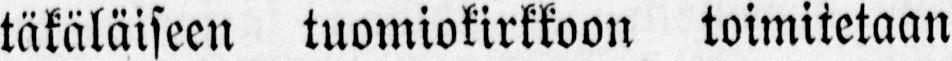täkäläiseen tuomiokirkkoon toimitetaan
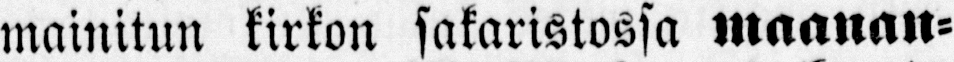mainitun kirkon sakaristossa maanan-
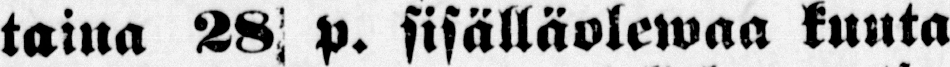taina 28 p. sisälläolewaa kuuta
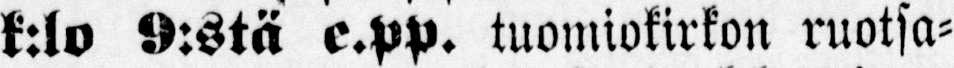k:lo 9:stä e.pp. tuomiokirkon ruotsa-
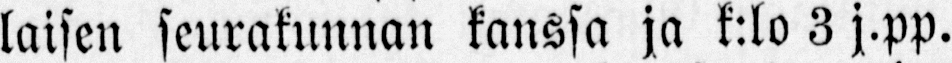laisen seurakunnan kanssa ja k:lo 3 j.pp.
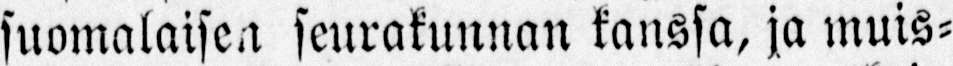suomalaisen seurakunnan kanssa, ja muis-
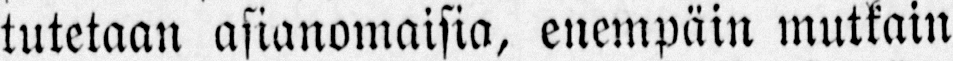tutetaan asianomaisia, enempäin mutkain
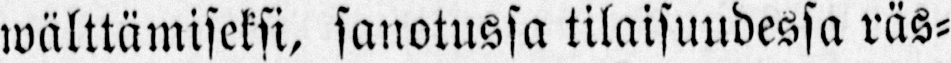wälttämiseksi, sanotussa tilaisuudessa räs-
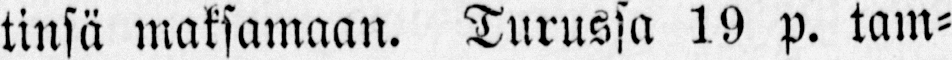tinsä maksamaan. Turussa 19 p. tam-
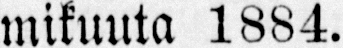mikuuta 1884.
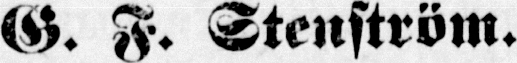G. F. Stenström.
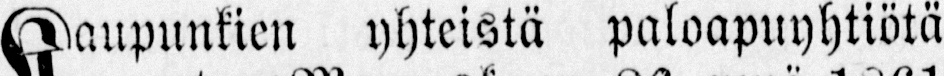Kaupunkien yhteistä paloapuyhtiötä
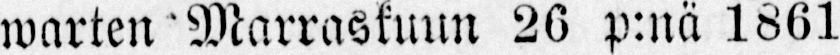warten Marraskuun 26 p:nä 1861
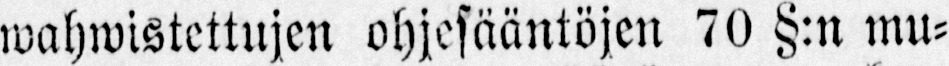wahwistettujen ohjesääntöjen 70 §:n mu-
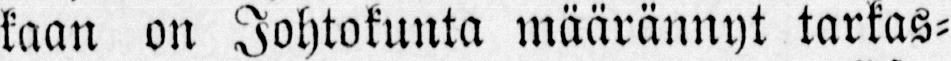kaan on Johtokunta määrännyt tarkas-
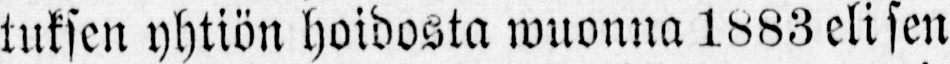tuksen yhtiön hoidosta wuonna 1883 eli sen
